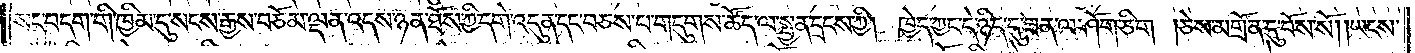སང་བདག་གི་ཁྱིམ་དུ་སངས་རྒྱས་བཅོམ་ལྡན་འདས་ཉན་ཐོས་ཀྱི་དགེ་འདུན་དང་བཅས་པ་གདུགས་ཚོད་ལ་སྤྱན་དྲངས་ཀྱི། ཁྱེད་ཀྱང་དེ་ཉིད་དུ་ཟན་ལ་ཤོག་ཅིག །ཅེས་མགྲོན་དུ་བོས་སོ། །ཡངས་
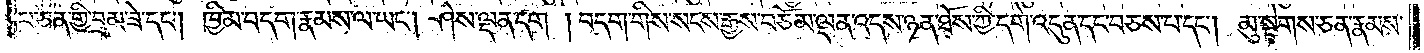པ་ཅན་གྱི་བྲམ་ཟེ་དང༌། ཁྱིམ་བདག་རྣམས་ལ་ཡང༌། ཤེས་ལྡན་དག །བདག་གིས་སངས་རྒྱས་བཅོམ་ལྡན་འདས་ཉན་ཐོས་ཀྱི་དགེ་འདུན་དང་བཅས་པ་དང༌། མུ་སྟེགས་ཅན་རྣམས་
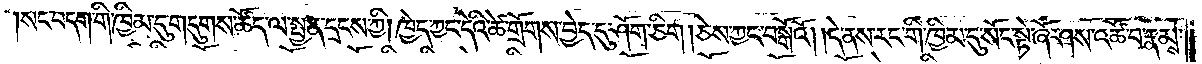སང་བདག་གི་ཁྱིམ་དུ་གདུགས་ཚོད་ལ་སྤྱན་དྲངས་ཀྱི། ཁྱེད་ཀྱང་དེའི་ཚེ་གྲོགས་བྱེད་དུ་ཤོག་ཅིག །ཅེས་ཀྱང་བསྒོའོ། །དེ་ནས་རང་གི་ཁྱིམ་དུ་སོང་སྟེ་ཞོ་ཤས་འཚོ་བ་རྣམས་
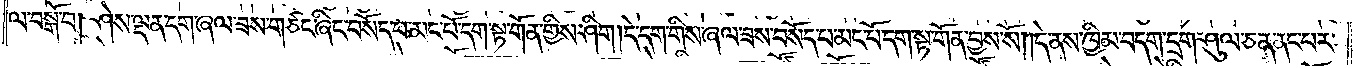ལ་བསྒོ་བ། ཤེས་ལྡན་དག་ཞལ་ཟས་གཙང་ཞིང་བསོད་པ་མང་པོ་དག་སྟ་གོན་གྱིས་ཤིག །དེ་དག་གིས་ཞལ་ཟས་བསོད་པ་མང་པོ་དག་སྟ་གོན་བྱས་སོ། །དེ་ནས་ཁྱིམ་བདག་དྲག་ཤུལ་ཅན་ནང་པར་
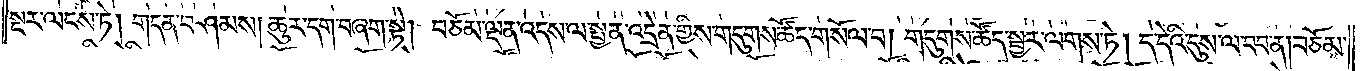སྔར་ལངས་ཏེ། གདན་བཤམས། ཆུར་དག་བཞག་སྟེ། བཅོམ་ལྡན་འདས་ལ་སྤྱན་འདྲེན་གྱིས་གདུགས་ཚོད་གསོལ་བ། གདུགས་ཚོད་སྦྱར་ལགས་ཏེ། ད་དེའི་དུས་ལ་བབ་ན། བཅོམ་
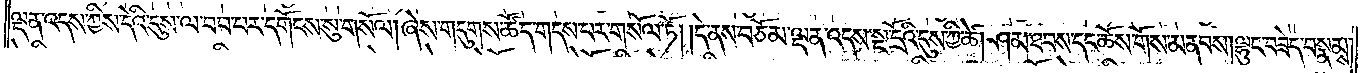ལྡན་འདས་ཀྱིས་དེའི་དུས་ལ་བབ་པར་དགོངས་སུ་གསོལ། ཞེས་གདུགས་ཚོད་གདས་པར་གསོལ་ཏོ། །དེ་ནས་བཅོམ་ལྡན་འདས་སྔ་དྲོའི་དུས་ཀྱི་ཚེ། ཤམ་ཐབས་དང་ཆོས་གོས་མནབས། ལྷུང་བཟེད་བསྣམས་
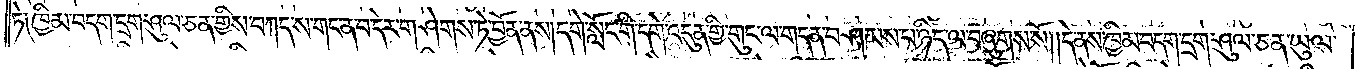ཏེ༑ ཁྱིམ་བདག་དྲག་ཤུལ་ཅན་གྱིས་བཀད་ས་གང་ན་བ་དེར་གཤེགས་ཏེ་བྱོན་ནས། དགེ་སློང་གི་དགེ་འདུན་གྱི་གུང་ལ་གདན་བཤམས་པ་ཉིད་ལ་བཞུགས་སོ། །དེ་ནས་ཁྱིམ་བདག་དྲག་ཤུལ་ཅན་ཡུལ་
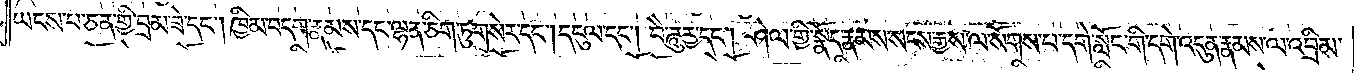ཡངས་པ་ཅན་གྱི་བྲམ་ཟེ་དང༌། ཁྱིམ་བདག་རྣམས་དང་ལྷན་ཅིག་ཏུ་གསེར་དང༌། དངུལ་དང༌། བཻ་ཌཱུཪྻ་དང༌། ཤེལ་གྱི་སྣོད་རྣམས་སངས་རྒྱས་ལ་སོགས་པ་དགེ་སློང་གི་དགེ་འདུན་རྣམས་ལ་འབྲིམ་
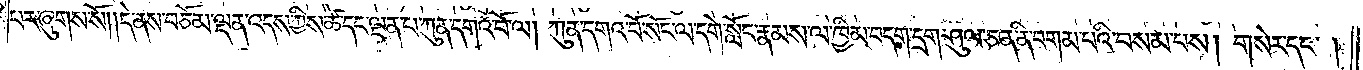པར་ཞུགས་སོ། །དེ་ནས་བཅོམ་ལྡན་འདས་ཀྱིས་ཚེ་དང་ལྡན་པ་ཀུན་དགའ་བོ་ལ། ཀུན་དགའ་བོ་སོང་ལ་དགེ་སློང་རྣམས་ལ་ཁྱིམ་བདག་དྲག་ཤུལ་ཅན་ནི་བགམ་པའི་བསམ་པས། གསེར་དང༌།
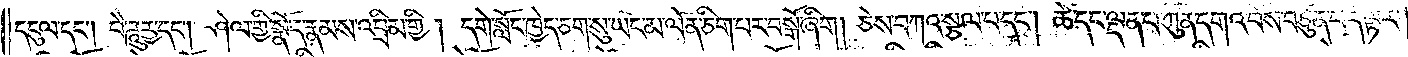དངུལ་དང༌། བཻ་ཌཱུཪྻ་དང༌། ཤེལ་གྱི་སྣོད་རྣམས་འབྲིམ་གྱི། དགེ་སློང་ཁྱེད་ཅག་སུ་ཡང་མ་ལེན་ཅིག་པར་བསྒོ་ཞིག །ཅེས་བཀའ་སྩལ་པ་དང༌། ཚེ་དང་ལྡན་པ་ཀུན་དགའ་བོས་བཙུན་པ་དེ་ལྟར་
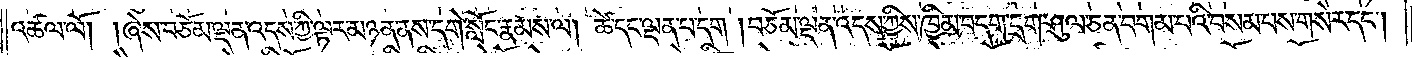འཚལ་ལོ། །ཞེས་བཅོམ་ལྡན་འདས་ཀྱི་ལྟར་མཉན་ནས་དགེ་སློང་རྣམས་ལ། ཚེ་དང་ལྡན་པ་དག །བཅོམ་ལྡན་འདས་ཀྱིས་ཁྱིམ་བདག་དྲག་ཤུལ་ཅན་བགམ་པའི་བསམ་པས་གསེར་དང༌།
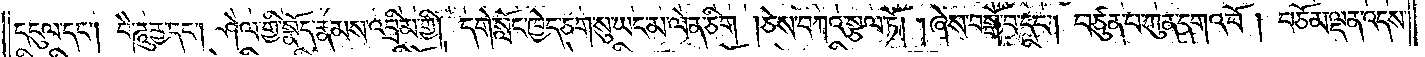དངུལ་དང༌། བཻ་ཌཱུཪྻ་དང༌། ཤེལ་གྱི་སྣོད་རྣམས་འབྲིམ་གྱི། དགེ་སློང་ཁྱེད་ཅག་སུ་ཡང་མ་ལེན་ཅིག །ཅེས་བཀའ་སྩལ་ཏོ། །ཞེས་བསྒོ་བ་དང༌། བཙུན་པ་ཀུན་དགའ་བོ། །བཅོམ་ལྡན་འདས་
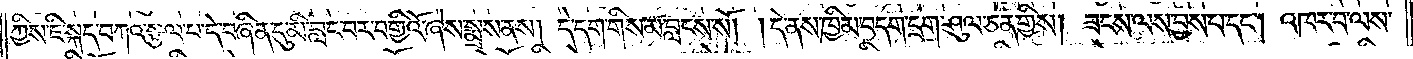ཀྱིས་ཇི་སྐད་བཀའ་སྩལ་པ་དེ་བཞིན་དུ་མི་བླང་བར་བགྱིའོ་ཞེས་སྨྲས་ནས། དེ་དག་གིས་མ་བླངས་སོ། །དེ་ནས་ཁྱིམ་བདག་དྲག་ཤུལ་ཅན་གྱིས། ཟངས་ལས་བྱས་པ་དང༌། འཁར་བ་ལས་
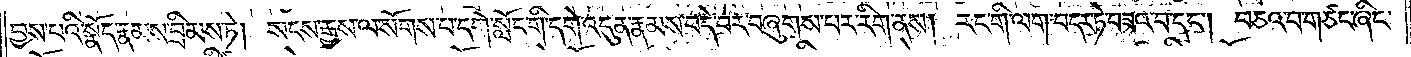བྱས་པའི་སྣོད་རྣམས་བྲིམས་ཏེ། སངས་རྒྱས་ལ་སོགས་པ་དགེ་སློང་གི་དགེ་འདུན་རྣམས་བདེ་བར་བཞུགས་པར་རིག་ནས། རང་གི་ལག་བདར་ཏེ་བཟའ་བ་དང༌། བཅའ་བ་གཙང་ཞིང་
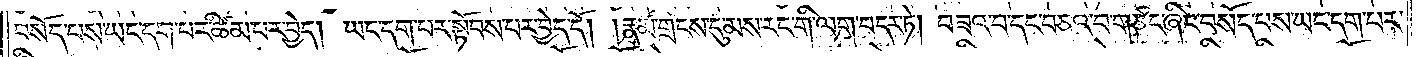བསོད་པས་ཡང་དག་པར་ཚིམ་པར་བྱེད། ཡང་དག་པར་སྟོབས་པར་བྱེད་དོ། །རྣམ་གྲངས་དུ་མས་རང་གི་ལག་བདར་ཏེ། བཟའ་བ་དང་བཅའ་བ་གཙང་ཞིང་བསོད་པས་ཡང་དག་པར་
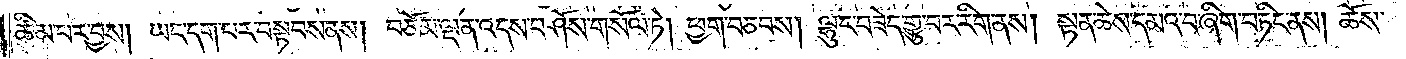ཚིམ་པར་བྱས། ཡང་དག་པར་བསྟབས་ནས། བཅོམ་ལྡན་འདས་བཤོས་གསོལ་ཏེ། ཕྱག་བཅབས། ལྷུང་བཟེད་གྱུ་བར་རིག་ནས། སྟན་ཆེས་དམའ་བ་ཞིག་བཏིང་ནས། ཆོས་
